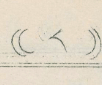(( ༨ ))
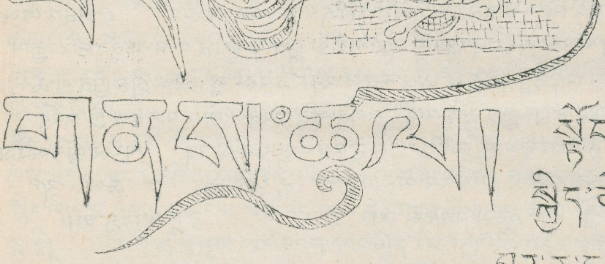གནས་ཚུལ།
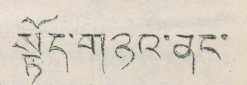སྟོད་གཉའ་ནང་
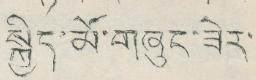སྐྱིད་མོ་གཞུང་ཟེར་
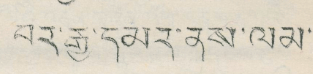བར་རྒྱ་དམར་ནས་ལམ་
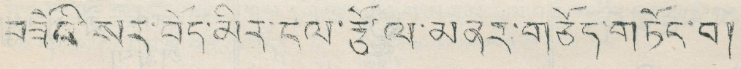བཟོའི་སར་བོད་མིར་ངལ་རྩོལ་མནར་གཅོད་གཏོང་བ།
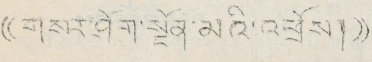(( གསར་ཤོག་སྔོན་མའི་འཕྲོས། ))
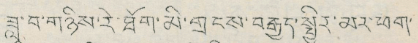ཟླ་བ་གཉིས་རེ་ཐོག་མི་གྲངས་བརྒྱུད་སྤྱིར་མར་ཕག་
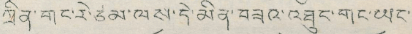ཀྲིན་གང་རེ་ཙམ་ལས་དེ་མིན་བཟའ་འཐུང་གང་ཡང་
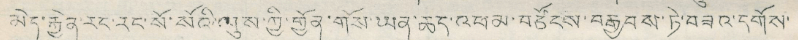མེད་རྐྱེན་རང་རང་སོ་སོའི་ལུས་ཀྱི་གྱོན་གོས་ཡན་ཆེད་འཕམ་བཙོངས་བརྒྱབས་ཏེ་བཟའ་དགོས་
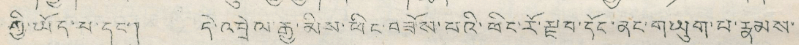ཀྱི་ཡོད་པ་དང་། དེ་འབྲེལ་རྒྱ་མིས་ཕིང་བཟོས་པའི་ཕིང་རོ་རྫབ་དོང་ནང་གཡུག་པ་རྣམས་
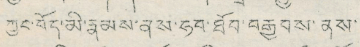ཀྱང་བོད་མི་རྣམས་ནས་ཧབ་ཐོབ་བརྒྱབས་ནས་
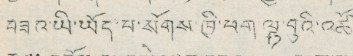བཟའ་ཡི་ཡོད་པ་སོགས་ཁྱི་ཕག་ལྟ་བུའི་འཚོ་
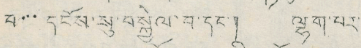བ་་་དངོས་སུ་བསྐྱེལ་བ་དང་། ལྷག་པར་
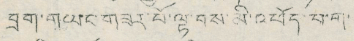བྲག་གཡང་གཟར་པོ་ལྟ་བས་མི་འཕོད་པ་ག་
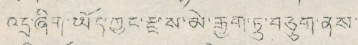འདྲ་ཞིག་ཡོད་ཀྱང་རྗེས་མེ་རྒྱག་ཏུ་བཅུག་ནས་
